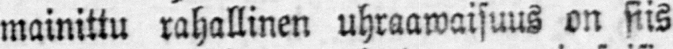mainittu rahallinen uhraawaisuus on siis
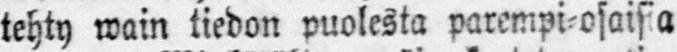tehty wain tiedon puolesta parempi-osaisia
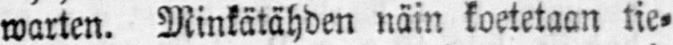warten. Minkätähden näin koetetaan tie-
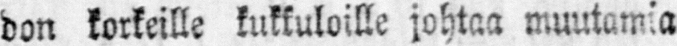don korkeille kukkuloille johtaa muutamia
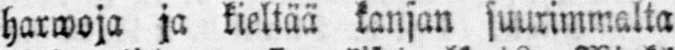Harwoja ja kieltää kansan suurimmalta
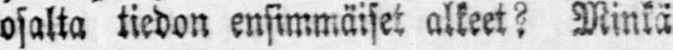osalta tiedon ensimmäiset alkeet? Minkä
